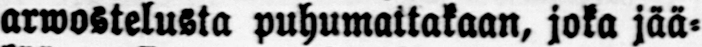arwostelusta puhumattakaan, joka jää-
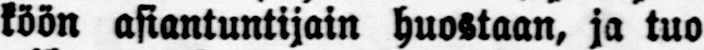köön asiantuntijain huostaan, ja tuo
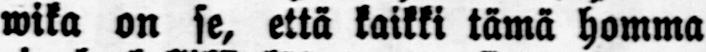wika on se, että kaikki tämä homma
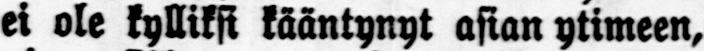ei ole kylliksi kääntynyt asian ytimeen,
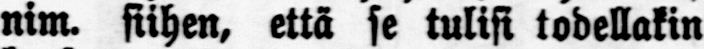nim. siihen, että se tulisi todellakin
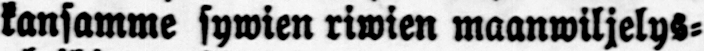kansamme sywien riwien maanwiljelys-
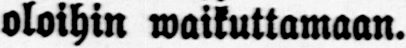oloihin waikuttamaan.
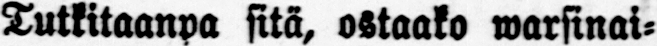Tulkitaanpa sitä, ostaako warsinai-
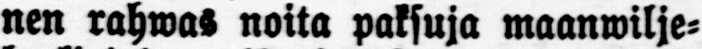nen rahwas noita paksuja maanwilje-
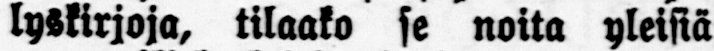lyskirjoja, tilaako se noita yleisiä
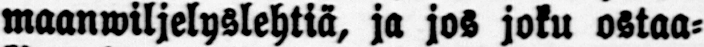maanwiljelyslehtiä, ja jos joku ostoa-
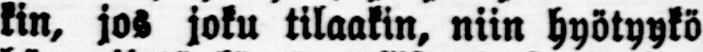kin, jos joku tilaakin, niin hyötyykö
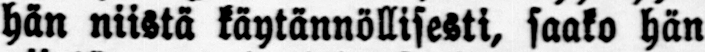hän niistä käytännöllisesti, saako hän
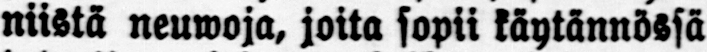niistä neuwoja, joita sopii käytännössä
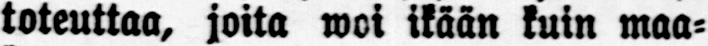toteuttaa, joita woi ikään kuin maa-
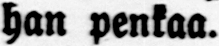han penkaa.
